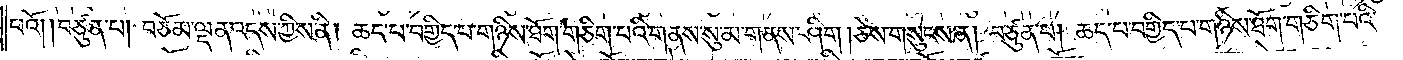པའོ། །བཙུན་པ། བཅོམ་ལྡན་འདས་ཀྱིས་ནི། ཆད་པ་བགྱིད་པ་གཉིས་ཐོག་གཅིག་པའི་གནས་སུ་མ་གནས་ཤིག །ཅེས་གསུངས་ན། བཙུན་པ། ཆད་པ་བགྱིད་པ་གཉིས་ཐོག་གཅིག་པའི་
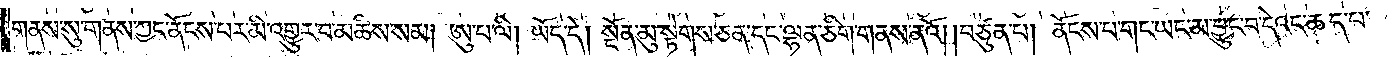གནས་སུ་གནས་ཀྱང་ནོངས་པར་མི་འགྱུར་བ་མཆིས་སམ། ཨུ་པ་ལི། ཡོད་དེ། སྔོན་མུ་སྟེགས་ཅན་དང་ལྷན་ཅིག་གནས་ནའོ། །བཙུན་པ། ནོངས་པ་གང་ཡང་མ་བྱུང་བ་དེའང་ཆད་པ་
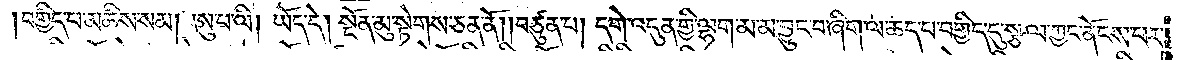བགྱིད་པ་མཆིས་སམ། ཨུ་པ་ལི། ཡོད་དེ། སྔོན་མུ་སྟེགས་ཅན་ནོ། །བཙུན་པ། དགེ་འདུན་གྱི་ལྷག་མ་མ་བྱུང་བ་ཞིག་ལ་ཆད་པ་བགྱིད་དུ་སྩལ་ཀྱང་ནོངས་པར་
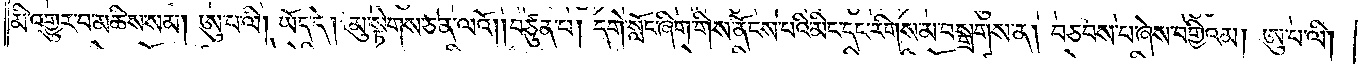མི་འགྱུར་བ་མཆིས་སམ། ཨུ་པ་ལི། ཡོད་དེ། མུ་སྟེགས་ཅན་ལའོ། །བཙུན་པ། དགེ་སློང་ཞིག་གིས་ནོངས་པའི་མིང་དང་རིགས་མ་བསྒྲགས་ན། བཅབས་པ་ཞེས་བགྱིའམ། ཨུ་པ་ལི།
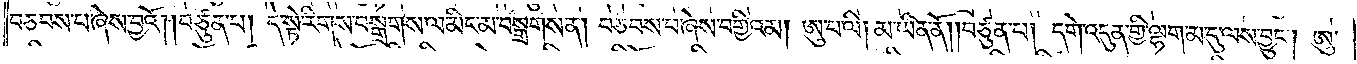བཅབས་པ་ཞེས་བྱའོ། །བཙུན་པ། དེ་སྟེ་རིགས་བསྒྲགས་ལ་མིང་མ་བསྒྲགས་ན། བཅབས་པ་ཞེས་བགྱིའམ། ཨུ་པ་ལི། མ་ཡིན་ནོ། །བཙུན་པ། དགེ་འདུན་གྱི་ལྷག་མ་དུ་ལས་བྱུང༌། ཨུ་
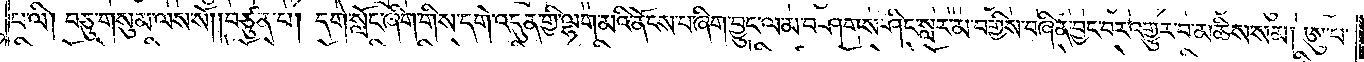པ་ལི། བཅུ་གསུམ་ལས་སོ། །བཙུན་པ། དགེ་སློང་ཞིག་གིས་དགེ་འདུན་གྱི་ལྷག་མའི་ནོངས་པ་ཞིག་བྱུང་ལ་མ་བཤགས་ཤིང་སླར་མ་བགྱིས་བཞིན་བྱང་བར་འགྱུར་བ་མཆིས་སམ། ཨུ་པ་
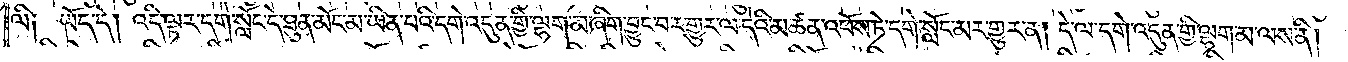ལི༑ ཡོད་དེ། འདི་ལྟར་དགེ་སློང་དེ་ཐུན་མོང་མ་ཡིན་པའི་དགེ་འདུན་གྱི་ལྷག་མ་ཞིག་བྱུང་བར་གྱུར་ལ་དེའི་མཚན་འཕོས་ཏེ་དགེ་སློང་མར་གྱུར་ན། དེ་ལ་དགེ་འདུན་གྱི་ལྷག་མ་ལས་ནི།
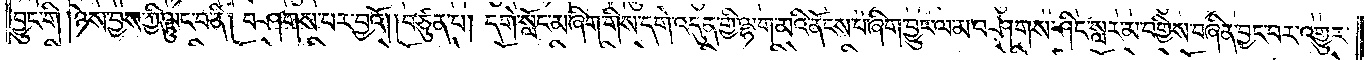བྱུང་གི །ཉེས་བྱས་ཀྱི་ལྟུང་བ་ནི། བཤགས་པར་བྱའོ། །བཙུན་པ། དགེ་སློང་མ་ཞིག་གིས་དགེ་འདུན་གྱི་ལྷག་མའི་ནོངས་པ་ཞིག་བྱུང་ལ་མ་བཤགས་ཤིང་སླར་མ་བགྱིས་བཞིན་བྱང་བར་འགྱུར་
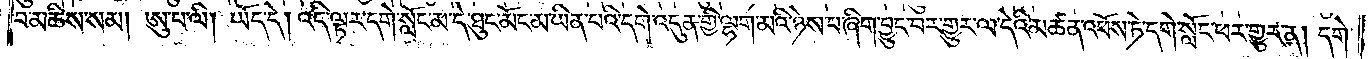བ་མཆིས་སམ། ཨུ་པ་ལི། ཡོད་དེ། འདི་ལྟར་དགེ་སློང་མ་དེ་ཐུང་མོང་མ་ཡིན་པའི་དགེ་འདུན་གྱི་ལྷག་མའི་ཉེས་པ་ཞིག་བྱུང་བར་གྱུར་ལ་དེའི་མཚན་འཕོས་ཏེ་དགེ་སློང་ཕར་གྱུར་ན། དགེ་
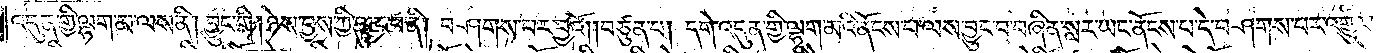འདུན་གྱི་ལྷག་མ་ལས་ནི། བྱུང་གི། ཉེས་བྱས་ཀྱི་ལྟུང་བ་ནི། བཤགས་པར་བྱའོ། །བཙུན་པ། དགེ་འདུན་གྱི་ལྷག་མའི་ནོངས་པ་ལས་བྱུང་བ་བཞིན་སླར་ཡང་ནོངས་པ་དེ་བཤགས་པར་འགྱུར་
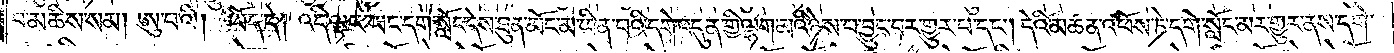བ་མཆིས་སམ། ཨུ་པ་ལི། ཡོད་དེ། འདི་ལྟར་ཡང་དགེ་སློང་དེས་ཐུན་མོངས་མ་ཡིན་པའི་དགེ་འདུན་གྱི་ལྷག་མའི་ཉེས་པ་བྱུང་བར་གྱུར་པ་དང༌། དེའི་མཚན་འཕོས་ཏེ་དགེ་སློང་མར་གྱུར་ནས་དགེ་
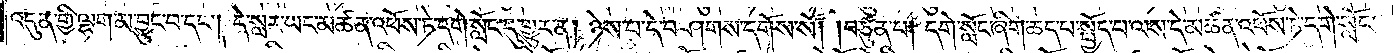འདུན་གྱི་ལྷག་མ་བྱུང་བ་དང༌། དེ་སླར་ཡང་མཚན་འཕོས་ཏེ་དགེ་སློང་དུ་གྱུར་ན། ཉེས་པ་དེ་བཤགས་དགོས་སོ། །བཙུན་པ། དགེ་སློང་ཞིག་ཆད་པ་སྤྱོད་པ་ལས་དེ་མཚན་འཕོས་ཏེ་དགེ་སློང་
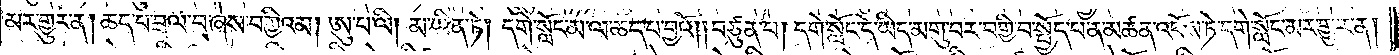མར་གྱུར་ན། ཆད་པ་བྲལ་བ་ཞེས་བགྱིའམ། ཨུ་པ་ལི། མ་ཡིན་ཏེ། དགེ་སློང་མ་ལ་ཆད་པ་བྱའོ། །བཙུན་པ། དགེ་སློང་དེ་ཡིད་མགུ་བར་བགྱི་བ་སྤྱོད་པ་ན་མཚན་འཕོས་ཏེ་དགེ་སློང་མར་གྱུར་ན།
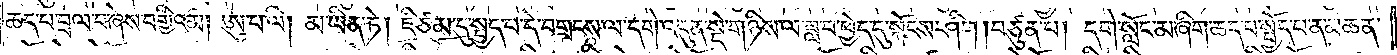ཆད་པ་བྲལ་བ་ཞེས་བགྱིའམ། ཨུ་པ་ལི། མ་ཡིན་ཏེ། ཇི་ཙམ་དུ་སྤྱད་པ་དེ་བགྲངས་ལ་དགེ་འདུན་སྡེ་གཉིས་ལ་ཟླ་བ་ཕྱེད་དུ་སྐོངས་ཤིག །བཙུན་པ། དགེ་སློང་མ་ཞིག་ཆད་པ་སྤྱོད་པ་ན་མཚན་
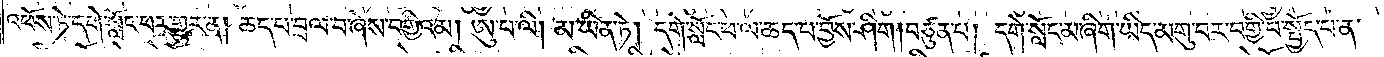འཕོས་ཏེ་དགེ་སློང་ཕར་གྱུར་ན། ཆད་པ་བྲལ་བ་ཞེས་བགྱིའམ། ཨུ་པ་ལི། མ་ཡིན་ཏེ། དགེ་སློང་ཕ་ལ་ཆད་པ་བྱོས་ཤིག །བཙུན་པ། དགེ་སློང་མ་ཞིག་ཡིད་མགུ་བར་བགྱི་བ་སྤྱོད་པ་ན་
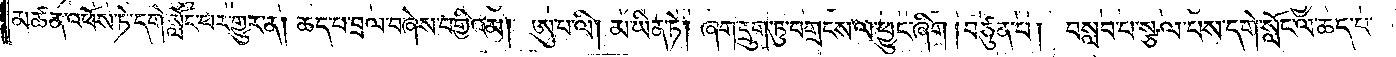མཚན་འཕོས་ཏེ་དགེ་སློང་ཕར་གྱུར་ན། ཆད་པ་བྲལ་བ་ཞེས་བགྱིའམ། ཨུ་པ་ལི། མ་ཡིན་ཏེ། ཞག་དྲུག་ཏུ་བགྲངས་ལ་ཕྱུང་ཞིག །བཙུན་པ། བསླབ་པ་སྩལ་པས་དགེ་སློང་ལ་ཆད་པ་
